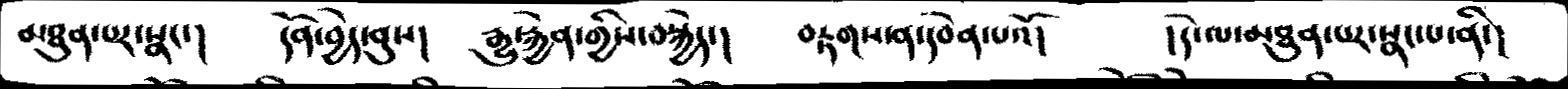མཐུན་པར་སྣང་།  དོན་བྱེད་ནུས།  རྒྱུ་རྐྱེན་གྱིས་བསྐྱེད་།   བརྟགས་ན་དབེན་པའོ།   །དེ་ལ་མཐུན་པར་སྣང་པ་ནི་།
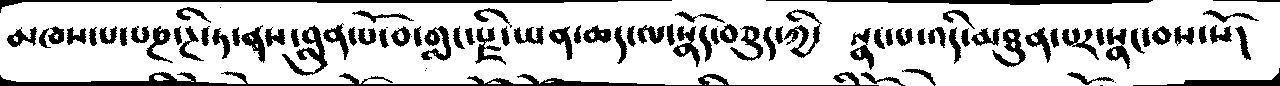མཁས་པ་པཎ་ཊི་ཏ་ནས་བླུན་པོ་བ་གླང་རྫི་ཡན་ཆད་ལ་སྣོད་བཅུད་ཀྱི་  སྣང་པ་འདི་མཐུན་པར་སྣང་བས་སོ།
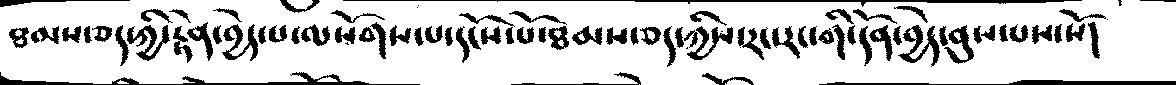ཐམས་ཅད་ཀྱི་རྟེན་བྱེད་པ་ལསོགས་པ་དངོས་པོ་ཐམས་ཅད་ཀྱིས་རང་རང་གི་དོན་བྱེད་ནུས་པས་སོ།
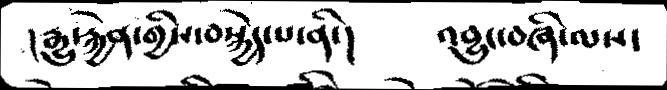།རྒྱུ་རྐྱེན་གྱིས་བསྐྱེད་པ་ནི་།  འབྱུང་བཞི་ལས་
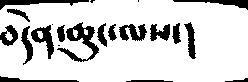བདེན་ཆུང་ལས་།
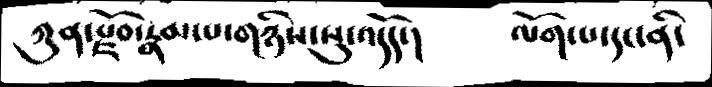ཀུན་རྫོབ་རྣམ་པ་གཉིས་སུ་འདོད་།    ལོག་པ་དང་ནི་
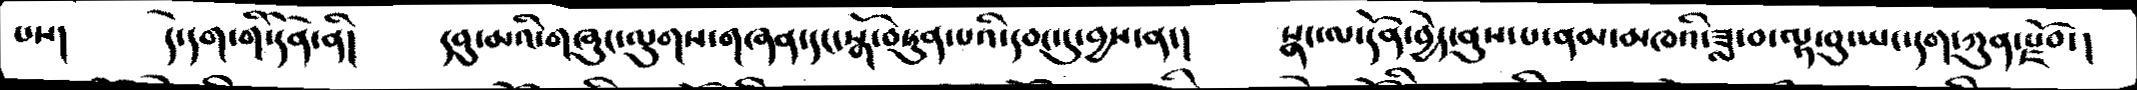པས།  དེ་དག་གི་དོན་ནི།   དབུ་མའི་གཞུང་ལུགས་གཞན་དང་སྒོ་བསྟུན་པའི་དབང་དུ་བྱས་ན་།  སྣང་ལ་དོན་བྱེད་ནུས་པ་ནམ་མཁའི་ཟླ་བ་ལྟ་བུ་ཡང་དག་ཀུན་རྫོབ་།
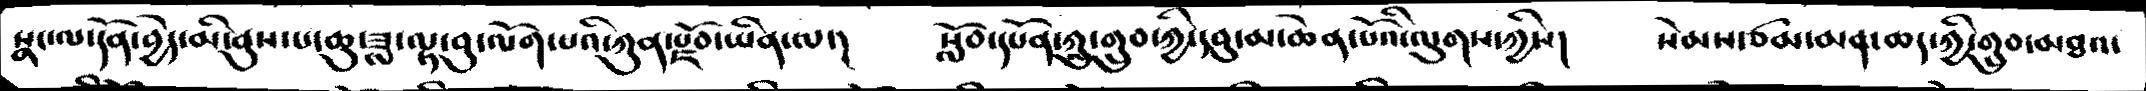སྣང་ལ་དོན་བྱེད་མི་ནུས་པ་ཆུ་ཟླ་ལྟ་བུ་ལོག་པའི་ཀུན་རྫོབ་ཡིན་ལ་།  སློབ་དཔོན་ཀླུ་གྲུབ་ཀྱི་དབུ་མ་ཆེན་པོའི་ལུགས་ཀྱིས།   སེམས་ཙམ་མན་ཆད་ཀྱི་གྲུབ་མཐའ་
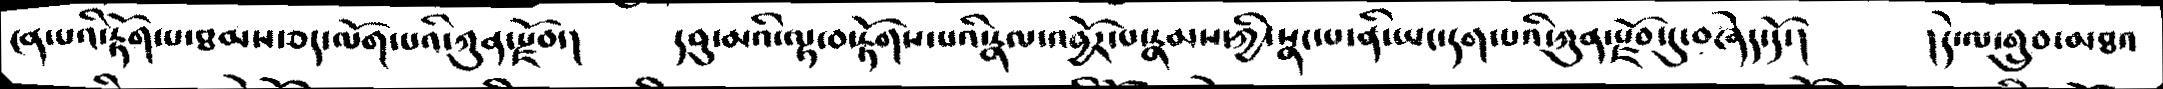ངན་པའི་རྟོག་པ་ཐམས་ཅད་ལོག་པའི་ཀུན་རྫོབ་།   དབུ་མའི་ལྟ་བ་རྟོགས་པའི་རྣལ་འབྱོར་པ་རྣམས་ཀྱི་སྣང་པ་ནི་ཡང་དག་པའི་ཀུན་རྫོབ་བཞེད་དོ་།  །དེ་ལ་གྲུབ་མཐའ་
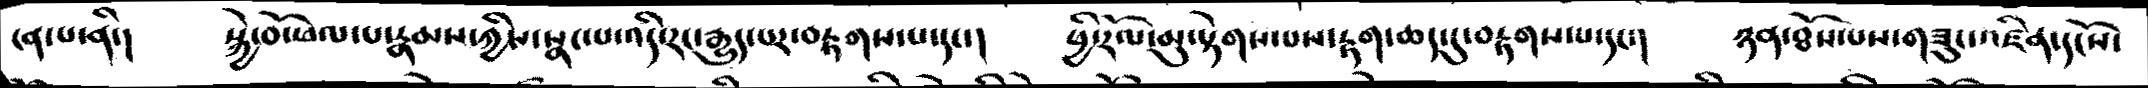ངན་པ་ནི་།   སྐྱེ་བོ་ཕལ་པ་རྣམས་ཀྱིས་སྣང་པ་འདི་རང་རྒྱུད་པར་བརྟགས་པ་དང་།   ཕྱི་རོལ་མུ་སྟེགས་པས་རྟག་ཆད་དུ་བརྟགས་པ་དང་།   ཉན་ཐོས་པས་གཟུང་འཛིན་དངོས་
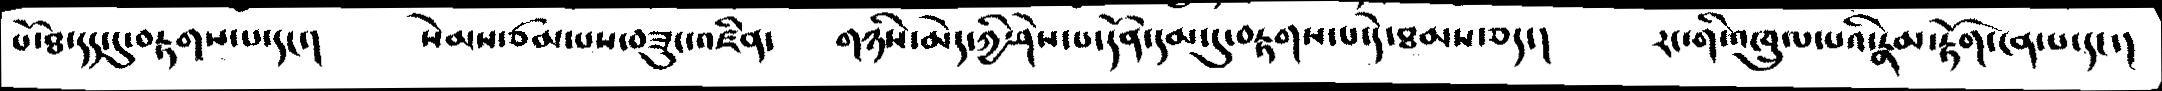པོ་ཐ་དད་དུ་བརྟགས་པ་དང་།   སེམས་ཙམ་པས་བཟུང་འཛིན་    གཉིས་མེད་ཀྱི་ཤེས་པ་དོན་དམ་དུ་བརྟགས་པ་དེ་ཐམས་ཅད་།   རང་གི་འཁྲུལ་པའི་རྣམ་རྟོག་ངན་པ་དང་།
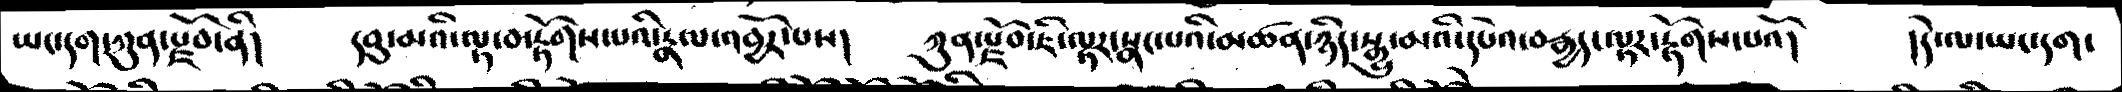ཡང་དག་ཀུན་རྫོབ་ནི།   དུ་མའི་ལྟ་བ་རྟོགས་པའི་རྣལ་འབྱོར་པས།   ཀུན་རྫོབ་ཇི་ལྟར་སྣང་པའི་མཚན་ཉིད་སྒྱུ་མའི་དཔེའ་བརྒྱད་ལྟར་རྟོགས་པའོ།  །དེ་ལ་ཡང་དག་
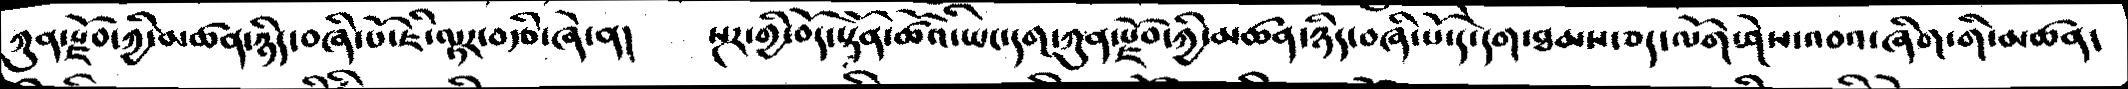ཀུན་རྫོབ་ཀྱི་མཚན་ཉིད་བཞི་པོ་ཇི་ལྟར་བརྩི་ཞེ་ན།  སྔར་གྱི་བོད་སྟོན་ཚོའི་ཡང་དག་ཀུན་རྫོབ་ཀྱི་མཚན་ཉིད་བཞི་པོ་དེ་དག་ཐམས་ཅད་ལོག་ཤེས་འབའ་ཞིག་གི་མཚན་
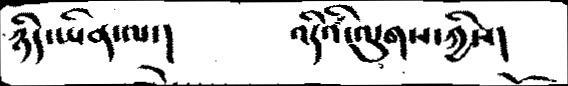ཉིད་ཡིན་ལ་།    འདིའི་ལུགས་ཀྱིས།
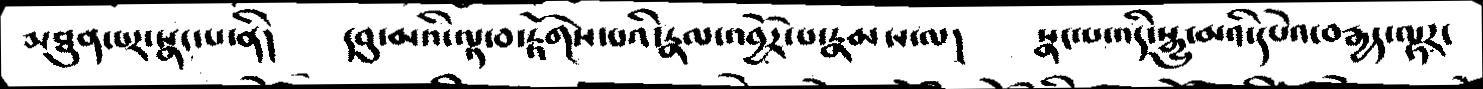མཐུན་པར་སྣང་པ་ནི།   དབུ་མའི་ལྟ་བ་རྟོགས་པའི་རྣལ་འབྱོར་པ་རྣམས་ལ།  སྣང་པ་འདི་སྒྱུ་མའི་དཔེའ་བརྒྱད་ལྟར་
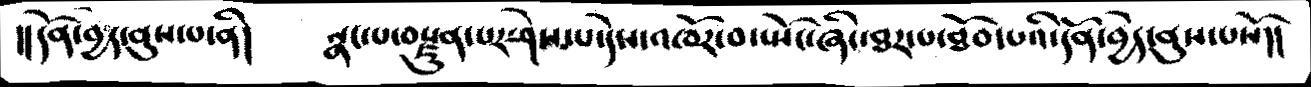།།དོན་བྱེད་ནུས་པ་ནི།   སྣང་པ་བརྫུན་པར་ཤེས་པ་དེས་འཁོར་བ་སྤོང་ཞིང་ཐར་པ་ཐོབ་པའི་དོན་བྱེད་ནུས་པསོ།།
